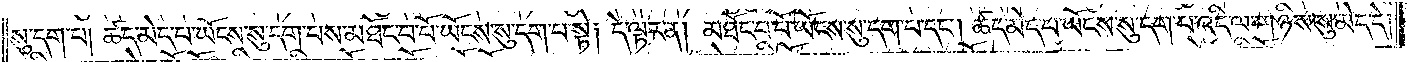སུ་དག་པ། ཚད་མེད་པ་ཡོངས་སུ་དག་པས་མཐོང་བ་པོ་ཡོངས་སུ་དག་པ་སྟེ༑ དེ་ལྟར་ན། མཐོང་བ་པོ་ཡོངས་སུ་དག་པ་དང༌། ཚད་མེད་པ་ཡོངས་སུ་དག་པ་འདི་ལ་གཉིས་སུ་མེད་དེ།
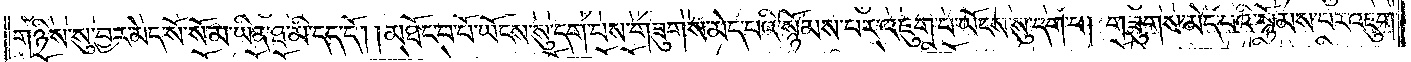གཉིས་སུ་བྱར་མེད་སོ་སོ་མ་ཡིན་ཐ་མི་དད་དོ། །མཐོང་བ་པོ་ཡོངས་སུ་དག་པས་གཟུགས་མེད་པའི་སྙོམས་པར་འཇུག་པ་ཡོངས་སུ་དག་པ། གཟུགས་མེད་པའི་སྙོམས་པར་འཇུག་
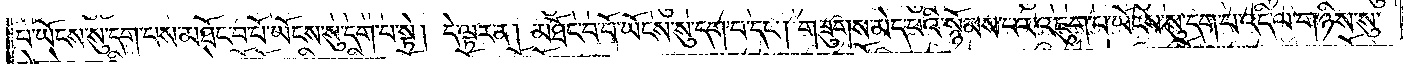པ་ཡོངས་སུ་དག་པས་མཐོང་བ་པོ་ཡོངས་སུ་དག་པ་སྟེ། དེ་ལྟར་ན། མཐོང་བ་པོ་ཡོངས་སུ་དག་པ་དང༌། གཟུགས་མེད་པའི་སྙོམས་པར་འཇུག་པ་ཡོངས་སུ་དག་པ་འདི་ལ་གཉིས་སུ་
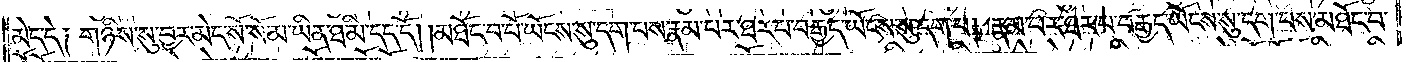མེད་དེ༑ གཉིས་སུ་བྱར་མེད་སོ་སོ་མ་ཡིན་ཐ་མི་དད་དོ། །མཐོང་བ་པོ་ཡོངས་སུ་དག་པས་རྣམ་པར་ཐར་པ་བརྒྱད་ཡོངས་སུ་དག་པ། རྣམ་པར་ཐར་པ་བརྒྱད་ཡོངས་སུ་དག་པས་མཐོང་བ་
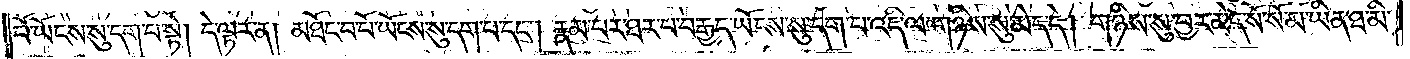པོ་ཡོངས་སུ་དག་པ་སྟེ། དེ་ལྟར་ན། མཐོང་བ་པོ་ཡོངས་སུ་དག་པ་དང༌། རྣམ་པར་ཐར་པ་བརྒྱད་ཡོངས་སུ་དག་པ་འདི་ལ་གཉིས་སུ་མེད་དེ། གཉིས་སུ་བྱར་མེད་སོ་སོ་མ་ཡིན་ཐ་མི་
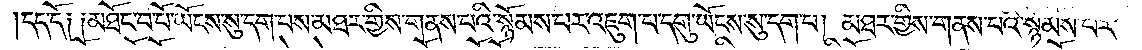དད་དོ༑ ༑མཐོང་བ་པོ་ཡོངས་སུ་དག་པས་མཐར་གྱིས་གནས་པའི་སྙོམས་པར་འཇུག་པ་དགུ་ཡོངས་སུ་དག་པ། མཐར་གྱིས་གནས་པའི་སྙོམས་པར་
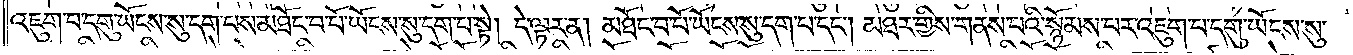འཇུག་པ་དགུ་ཡོངས་སུ་དག་པས་མཐོང་བ་པོ་ཡོངས་སུ་དག་པ་སྟེ། དེ་ལྟར་ན། མཐོང་བ་པོ་ཡོངས་སུ་དག་པ་དང༌། མཐར་གྱིས་གནས་པའི་སྙོམས་པར་འཇུག་པ་དགུ་ཡོངས་སུ་
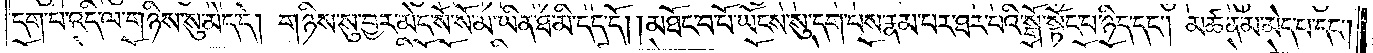དག་པ་འདི་ལ་གཉིས་སུ་མེད་དེ། གཉིས་སུ་བྱར་མེད་སོ་སོ་མ་ཡིན་ཐ་མི་དད་དོ། །མཐོང་བ་པོ་ཡོངས་སུ་དག་པས་རྣམ་པར་ཐར་པའི་སྒོ་སྟོང་པ་ཉིད་དང༌། མཚན་མ་མེད་པ་དང༌།
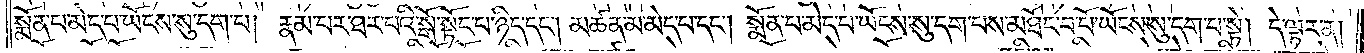སྨོན་པ་མེད་པ་ཡོངས་སུ་དག་པ། རྣམ་པར་ཐར་པའི་སྒོ་སྟོང་པ་ཉིད་དང༌། མཚན་མ་མེད་པ་དང༌། སྨོན་པ་མེད་པ་ཡོངས་སུ་དག་པས་མཐོང་བ་པོ་ཡོངས་སུ་དག་པ་སྟེ། དེ་ལྟར་ན།
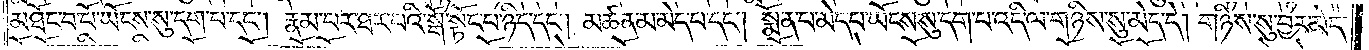མཐོང་བ་པོ་ཡོངས་སུ་དག་པ་དང༌། རྣམ་པར་ཐར་པའི་སྒོ་སྟོང་པ་ཉིད་དང༌། མཚན་མ་མེད་པ་དང༌། སྨོན་པ་མེད་པ་ཡོངས་སུ་དག་པ་འདི་ལ་གཉིས་སུ་མེད་དེ། གཉིས་སུ་བྱར་མེད་
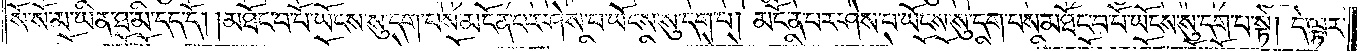སོ་སོ་མ་ཡིན་ཐ་མི་དད་དོ། །མཐོང་བ་པོ་ཡོངས་སུ་དག་པས་མངོན་པར་ཤེས་པ་ཡོངས་སུ་དག་པ། མངོན་པར་ཤེས་པ་ཡོངས་སུ་དག་པས་མཐོང་བ་པོ་ཡོངས་སུ་དག་པ་སྟེ། དེ་ལྟར་
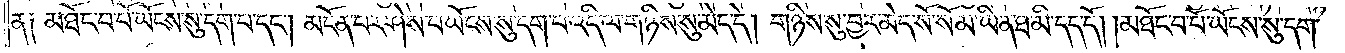ན༑ མཐོང་བ་པོ་ཡོངས་སུ་དག་པ་དང༌། མངོན་པར་ཤེས་པ་ཡོངས་སུ་དག་པ་འདི་ལ་གཉིས་སུ་མེད་དེ། གཉིས་སུ་བྱར་མེད་སོ་སོ་མ་ཡིན་ཐ་མི་དད་དོ། །མཐོང་བ་པོ་ཡོངས་སུ་དག་
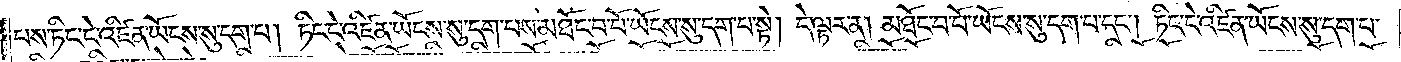པས་ཏིང་ངེ་འཛིན་ཡོངས་སུ་དག་པ། ཏིང་ངེ་འཛིན་ཡོངས་སུ་དག་པས་མཐོང་བ་པོ་ཡོངས་སུ་དག་པ་སྟེ། དེ་ལྟར་ན། མཐོང་བ་པོ་ཡོངས་སུ་དག་པ་དང༌། ཏིང་ངེ་འཛིན་ཡོངས་སུ་དག་པ་
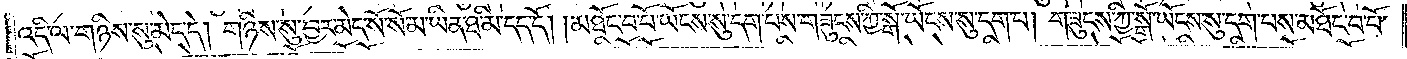འདི་ལ་གཉིས་སུ་མེད་དེ། གཉིས་སུ་བྱར་མེད་སོ་སོ་མ་ཡིན་ཐ་མི་དད་དོ། །མཐོང་བ་པོ་ཡོངས་སུ་དག་པས་གཟུངས་ཀྱི་སྒོ་ཡོངས་སུ་དག་པ། གཟུངས་ཀྱི་སྒོ་ཡོངས་སུ་དག་པས་མཐོང་བ་པོ་
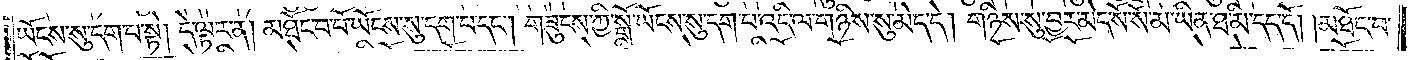ཡོངས་སུ་དག་པ་སྟེ། དེ་ལྟར་ན་མཐོང་བ་པོ་ཡོངས་སུ་དག་པ་དང༌། གཟུངས་ཀྱི་སྒོ་ཡོངས་སུ་དག་པ་འདི་ལ་གཉིས་སུ་མེད་དེ། གཉིས་སུ་བྱར་མེད་སོ་སོ་མ་ཡིན་ཐ་མི་དད་དོ། །མཐོང་བ་
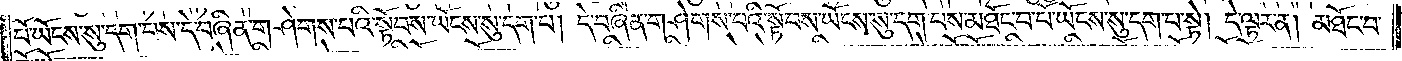པོ་ཡོངས་སུ་དག་པས་དེ་བཞིན་གཤེགས་པའི་སྟོབས་ཡོངས་སུ་དག་པ། དེ་བཞིན་གཤེགས་པའི་སྟོབས་ཡོངས་སུ་དག་པས་མཐོང་བ་པོ་ཡོངས་སུ་དག་པ་སྟེ། དེ་ལྟར་ན། མཐོང་བ་
